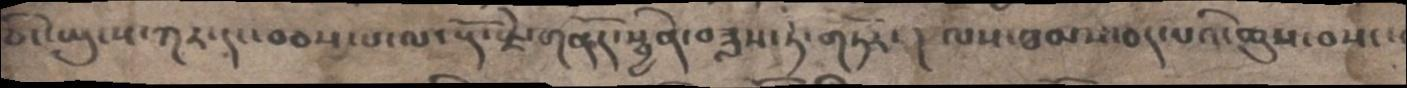ཅིང་ཡུངས་ཀར་དང་བཅས་པ་ལ་རྡོ་རྗེ་གནོད་སྦྱིན་བཟླས་ཏེ་གཏོར་ ། ལས་ཐམས་ཅད་པའི་ཆུས་བསང་་
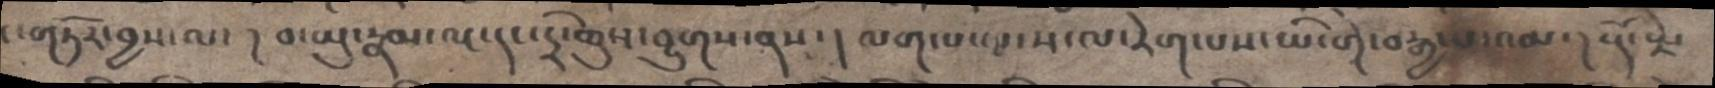ང་གཏོར་བྱས་ལ་། བ་སྤུ་རྣམ་ལ་དང་དྲེ་ཆུས་བྱུགས་ནས་། ལག་པ་ལ་ས་ལ་རེག་པས་ཡི་གེ་བརྒྱ་པ་འམ་། རྡོ་རྗེ་
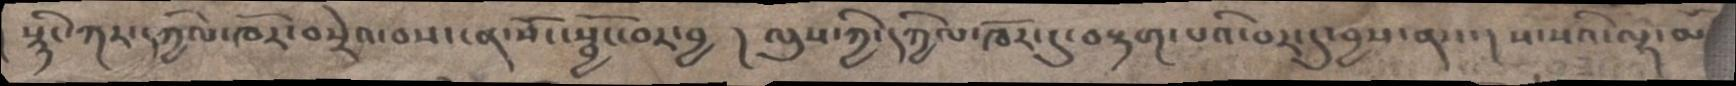སྙིང་ཀར་དཀྱིལ་ཁོར་བསྲེའ་བས་ངན་སོང་སྦྱོང་བར་བྱ ། ལུས་ཀྱི་དཀྱིལ་ཁོར་དུ་བརྟག་པའི་བར་དུ་བྱས་ནས་ ། ས་སའི་ལྷ་མོ
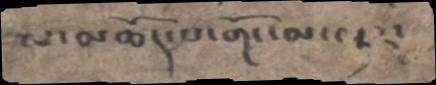ལ་མཆོད་པ་གོང་མ་ལྟར་
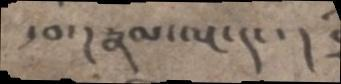་བ་། རྣམ་ལྔ་དང་།
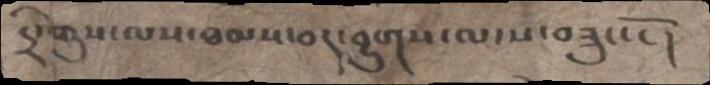དྲི་ཆུས་ལས་ཐམས་ཅད་བྱུགས་ལ་ས་བཟུང་ངོ་ །
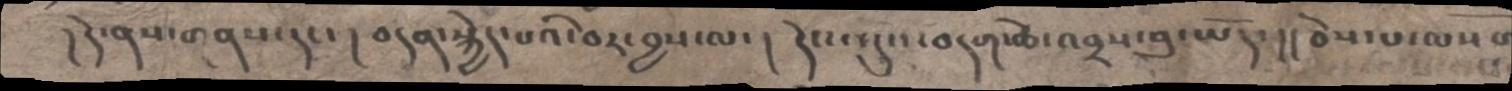། དེ་ནས་གནས་དང་ ། བདན་སྐྱེད་པའི་བར་བྱས་ལ་ ། དེང་འདུས་བདག་ཚེ་འབྲས་བུ་ཡོད་ །། ཅེས་པ་ལས་
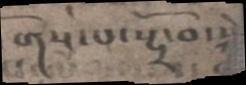གོས་པ་སྤྲོ་བ་སྐྱེད
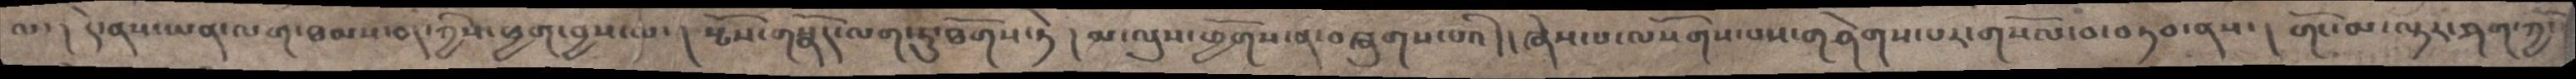ལ་ ། དེ་ནས་ཡན་ལག་ཐམས་ཅད་ཀྱིས་ཕྱག་བྱས་པ་ ། སྤོས་གསྣོད་ལག་ཏུ་ཐོགས་ཏེ ། མ་ལུས་ཕྱོགས་ན་བཞུགས་པའི། །ཞེས་པ་ལསོགས་པས་གཤེགས་པར་གསོལ་བ་བཏབ་ནས་། གོང་མ་ལྟར་ཤག་ཀྱི་
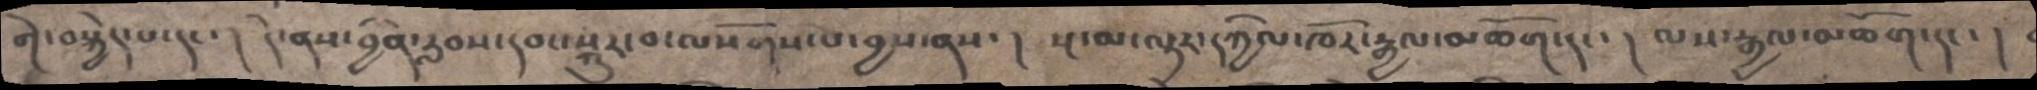གེ་བསྐྱེད་པ་དང་ ། དེ་ནས་བྱིན་རླབས་དབང་སྐུར་བ་ལསོགས་པ་བྱས་ནས་ ། སྔ་མ་ལྟར་དཀྱིལ་ཁོར་རྒྱལ་མཆོག་དང་ ། ལས་རྒྱལ་མཆོག་དང་ །
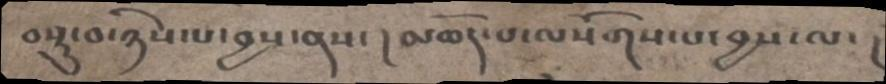བསྡུ་བ་ཉིས་པ་བྱས་ནས་ ། མཆོད་པ་ལསོགས་པ་བྱས་ལ་ །
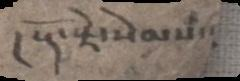། རྡོ་རྗེ་སེམས་
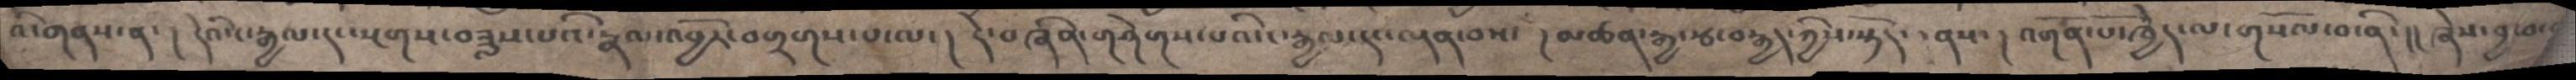འི་གནས་ན་ ། དེའི་རྒྱལ་དང་སྔགས་བཟླས་པའི་རྣལ་འབྱོར་བགྲགས་པ་ལ་ ། དེ་བཞིན་གཤེགས་པའི་ང་རྒྱལ་དང་ལྡན་བས་ ། མཚན་རྒྱ་རྩ་བརྒྱད་ཀྱིས་སྟོད་ནས་ ། འགོན་པོ་ཁྱེད་ལ་གསོལ་བ་ནི་ །། ཞེས་བྱ་བ་
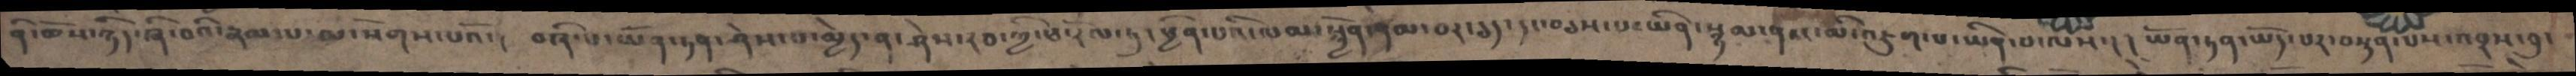ནི་ཆོས་ཉིད་ཞི་བའི་རྣམ་པ་ལ་སོགས་པའོ་། བཞི་པ་ཡོན་ཏན་ཤེས་པ་མྱེད་ན་ཤེས་རབ་ཀྱི་ཕ་རོལ་ཏུ་ཕྱིན་པའི་ལམ་སྐྱིན་ནམ་བར་ཅད་དང་བཅས་པ་ཡིན་སྙམ་ནས་མི་འཇུག་པ་ཡིན་པ་ལས་། །ཡོན་ཏན་ཡོད་པར་བསྟན་པས་འབྲས་བུ་
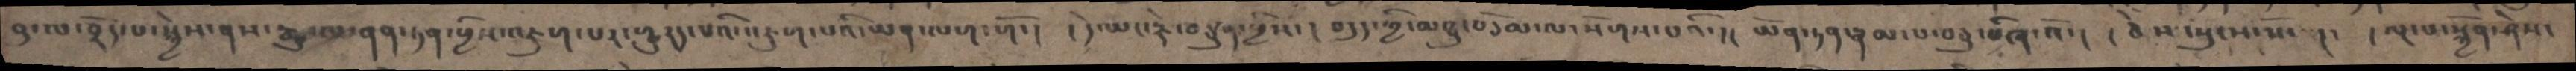བུ་ལ་བྲོད་པ་སྐྱེས་ནས་རྒྱུ་ལ་ནན་ཏན་གྱིས་འཇུག་པར་གྱུརད་པའི་འཇུག་པའི་ཡན་ལག་གོ་། །དེ་ཡང་རྗེ་བཅུན་གྱིས་། བདུད་ཀྱི་མཐུ་བཅོམ་ལ་སོགས་པའི་།། ཡོན་ཏན་རྣམ་པ་བཅུ་བཞི་འོ་། །ཅེས་སུངས་སོ་། །ལྔ་པ་སྐྱོན་ཤེས་
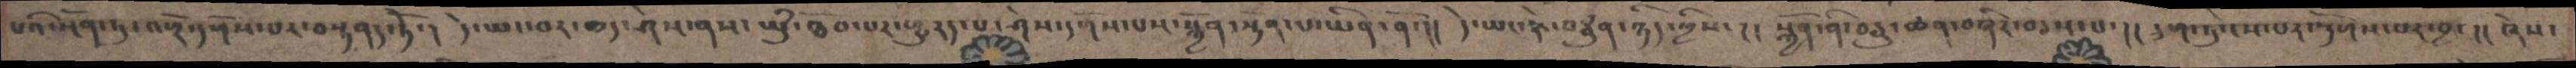པའི་སྔོན་ཏུ་འགྲོ་དགོས་པར་བསྟནད་ཏོ་། དེ་ཡང་བར་ཆད་ཤེས་ནས་ཡུཾ་ཐོབ་པར་གྱུརད་པ་ཤེས་དགོས་པས་སྐྱོན་སྟོན་པ་ཡིན་ནོ་།། དེ་ཡང་རྗེ་བཙུན་ཉིད་ཀྱིས་།། སྐྱོན་ནི་བཅུ་ཚན་བཞིར་བཅས་པ་།། དྲུག་ཏུ་ངེས་པར་རྟོགས་པར་བྱ་།། ཞེས་
